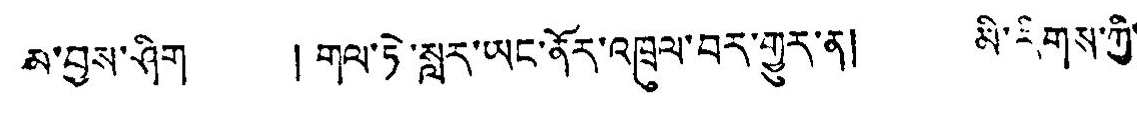མ་བྱས་ཤིག ། གལ་ཏེ་སླར་ཡང་ནོར་འཁྲུལ་བར་གྱུར་ན། མི་རིགས་ཀྱི་
